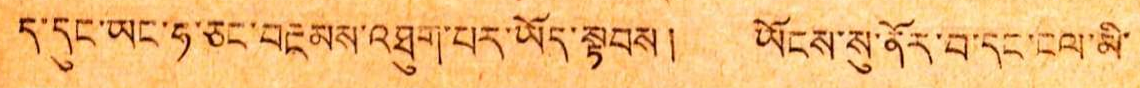ད་དུང་ཡང་ཧ་ཅང་བརྔམས་འཐུག་པར་ཡོད་སྟབས། ཡོངས་སུ་ནོར་བ་དང་ངལ་མི་
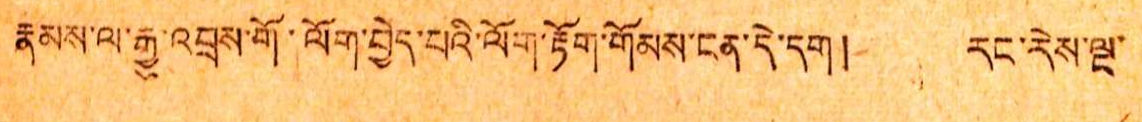རྣམས་ལ་རྒྱུ་འབྲས་གོ་ལོག་བྱེད་པའི་ལོག་རྟོག་གོམས་ངན་དེ་དག། རང་རེས་ལྔ་
